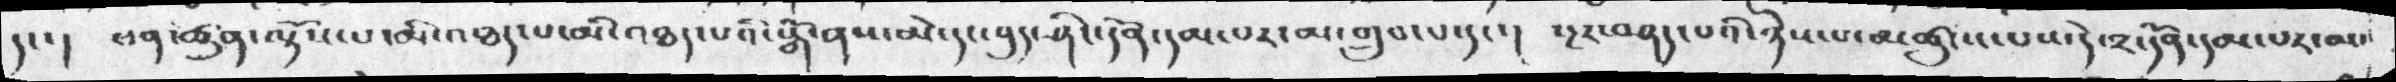དང་།  ཕན་ཚུན་ལྟོས་པ་མི་འཐད་པ་མི་འཐད་པའི་སྒོ་ནས་མེ་དང་བུད་ཤིང་དོན་དམ་པར་མ་གྲུབ་པ་དང་།  སྔར་བཤད་པའི་ཉེས་པ་མཚུངས་པས་དེ་༢་དོན་དམ་པར་མ་
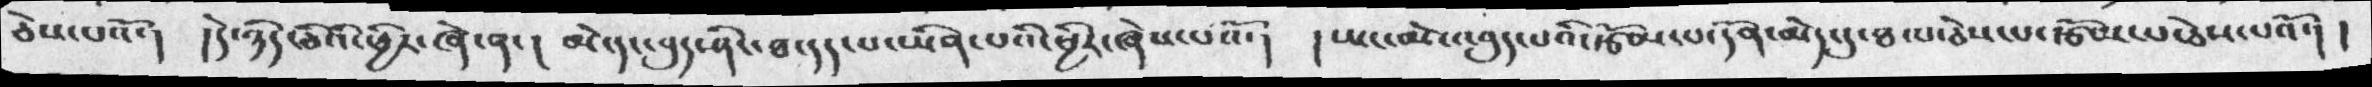ཅེས་པའོ་། །དེ་ཉིད་ཅིའི་ཕྱིར་ཞེ་ན་།  མེ་དང་བུད་ཤིང་ཐ་དད་པ་ཡིན་པའི་ཕྱིར་ཞེས་པའོ་། །ཡང་མེ་འབུད་པའི་རྩོམ་པ་དོན་མེད་དུ་ཐལ་པ་རྩོམ་པ་ཅེས་པའོ་། །
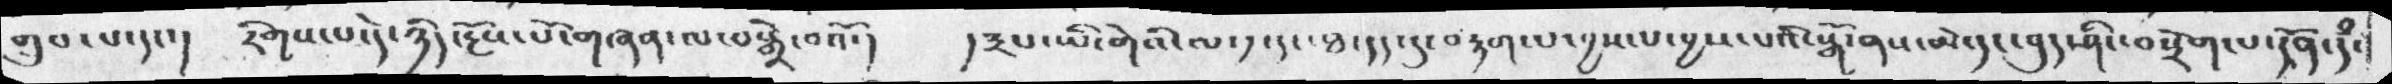གྲུབ་པ་དང་།  རིགས་པ་དེ་ཉིད་རྔོས་པོ་གཞན་ལ་བསྒྲེ་བའོ་།  །༣པ་ཡི་གེའི་ལ་༡་དང་ཐ་དད་དུ་བརྟག་པ་བྱས་བྱས་པའི་སྒོ་ནས་མེ་དང་བུད་ཤིང་བསྲེག་པ་དོན་དཾ་
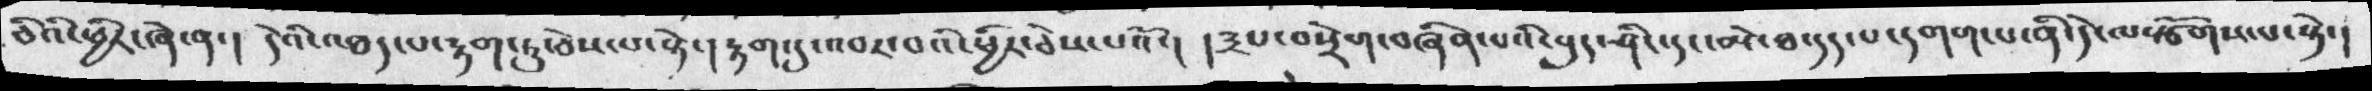ཅིའི་ཕྱིར་ཞེ་ན་།  དེའི་འཐད་པ་རྟག་ཏུ་ཅེས་པ་སྟེ་།  རྟག་དུ་འབར་བའི་ཕྱིར་ཅེས་པའོ་། །༣པ་བསྲེག་བཞིན་པའི་བུད་ཤིང་དང་མེ་ཐ་དད་པ་དགག་པ་ནི་དེ་ལསྩོགས་པ་སྟེ་།
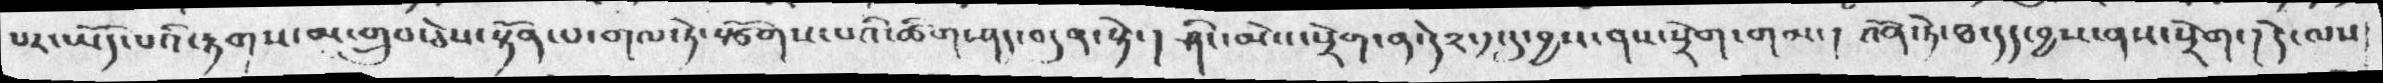པར་ཡོད་པའི་རྟགས་མ་གྲུབ་ཅེས་སྟོན་པ་གལ་ཏེ་སྩོགས་པའི་ཚིག་ཤད་བདུན་སྟེ་།. ཤིང་མེས་སྲེག་ན་དེ༢་༡་དུ་བྱས་ནས་སྲེག་གམ་། འོན་ཏེ་ཐ་དད་བྱས་ནས་སྲེག་། དེ་ལས་
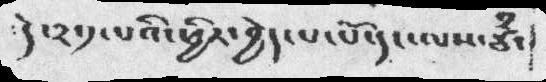དེ་༢་༡་པའི་ཕྱིར་བྱེད་པ་པོ་དང་ལས་ཙཾ་
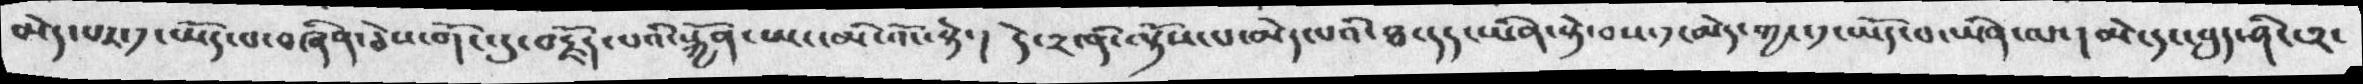མེད་པར་༡་ཡོད་པ་བཞིན་ཅེས་གོང་དུ་བརྗོད་པའི་སྐྱོན་ཡང་མི་འོང་སྟེ་།  དེ་༢་ནི་ལྟོས་པ་མེད་པའི་ཐ་དད་ཡིན་སྟེ་བས་༡་མེད་ཀྱང་༡་ཡོད་བ་ཡིན་ལ་། མེ་དང་བུད་ཤིང་༢་
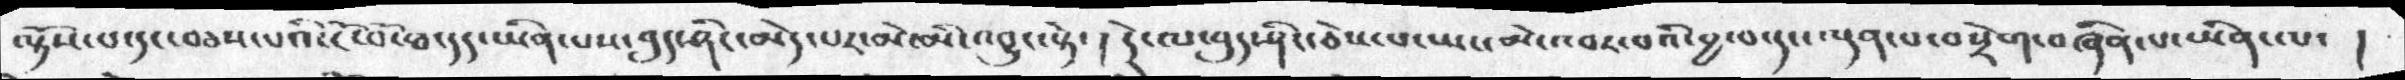ལྟོས་པ་དང་བཅས་པའི་ངོ་བོ་ཐ་དད་ཡིན་པས་བུད་ཤིང་མེད་པར་མེ་མི་འབྱུང་སྟེ་།  དེ་ལ་བུད་ཤིང་ཅེས་པ་ཡང་མེ་འབར་བའི་བྱ་བ་དང་ལྡན་པ་བསྲེག་བཞིན་པ་ཡིན་ལ་ །
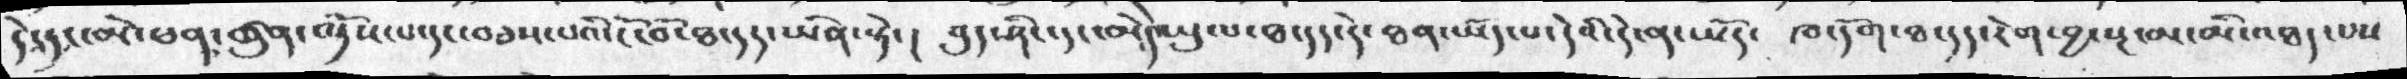དེ་དང་མེ་ཕན་ཚུན་ལྟོས་པ་དང་བཅས་པའི་ངོ་བོ་ཐ་དད་ཡིན་སྟེ་། བུད་ཤིང་དང་མེ་ཡུལ་ཐ་དད་དེ་ཐན་ཡོད་པ་དེའི་དེ་ན་ཡོད་ ཁ་དོག་ཐ་དད་རེག་བྱ་སྔ་མ་མི་འཐད་པས
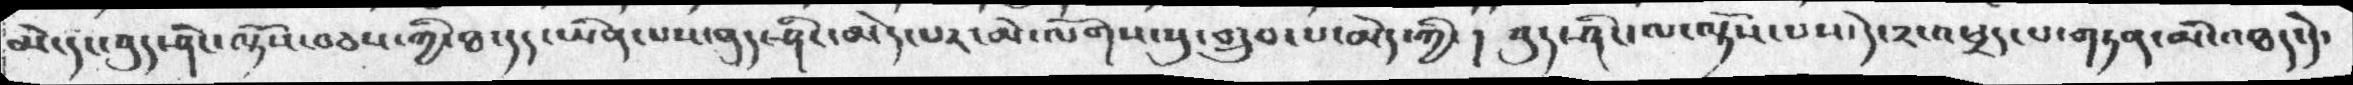མེ་དང་བུད་ཤིང་ལྟོས་བཅས་ཀྱི་ཐ་དད་ཡིན་པས་བུད་ཤིང་མེད་པར་མེ་ལོགས་སུ་གྲུབ་པ་མེད་ཀྱི་། བུད་ཤིང་ལ་ལྟོས་པས་དེ་༢་འཕྲད་པ་གཏན་མི་འཐད་དེ་
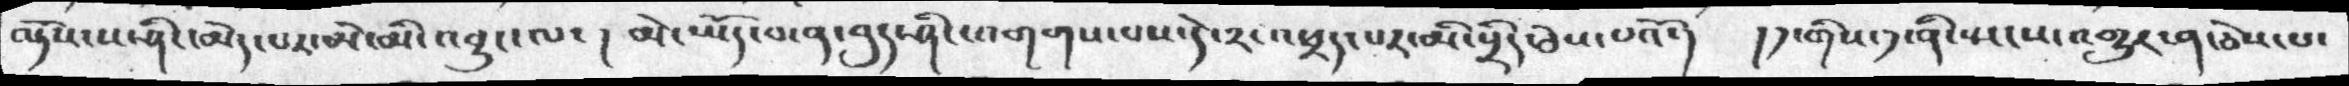ལྟོས་ས་ཤིང་མེད་པར་མེ་མི་འབྱུང་ལ་།  མེ་ཡོད་པ་ན་བུད་ཤིང་འགགས་པས་དེ་༢་འཕྲད་པར་མི་སྲིད་ཅེས་པའོ་།  །༡་གིས་༡་ནི་སྤངས་འགྱུར་ན་ཅེས་པ་
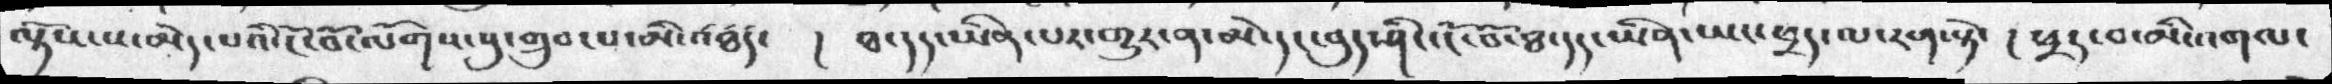ལྟོས་ས་མེད་པའི་ངོ་བོ་ལོགས་སུ་གྲུབ་པ་མི་འཐད་ ། ཐ་དད་ཡིན་པར་གྱུར་ན་མེ་དང་བུད་ཤིང་ངོ་བོ་ཐ་དད་ཡིན་ཡང་ཕྲད་ལ་རག་སྟེ་།  ཕྲད་བ་མི་འགལ་
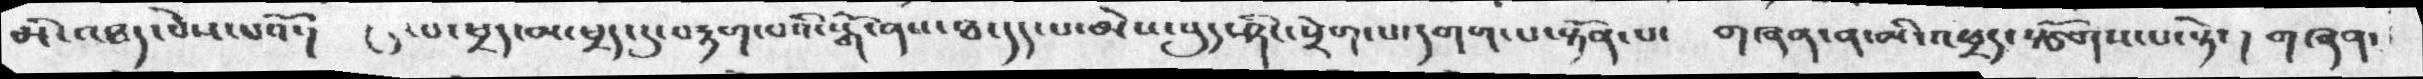མི་འཐད་ཅེས་པའོ་།  དུ་བ་ཕྲད་མ་ཕྲད་དུ་བརྟག་པའི་སྒོ་ནས་ཐ་དད་པ་མེས་བུད་ཤིང་སྲེག་པ་དགག་པ་སྟོན་པ་   གཞན་ན་མི་འཕྲད་སྩོགས་པ་སྟེ་། གཞན་
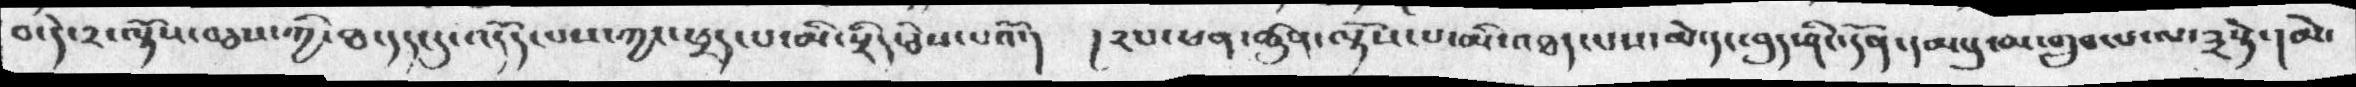བ་དེ་༢་ལྟོས་བཅས་ཀྱི་ཐ་དད་དུ་འདོད་པས་ཀྱང་ཕྲད་པ་མི་སྲིད་ཅེས་པའོ་།  །༢པ་ཕན་ཚུན་ལྟོས་པ་མི་འཐད་པས་མི་འཐད་པས་མེ་དང་བུད་ཤིང་དོན་དམ་དུ་མ་གྲུབ་པ་ལ་༣སྟེ་།མེ་
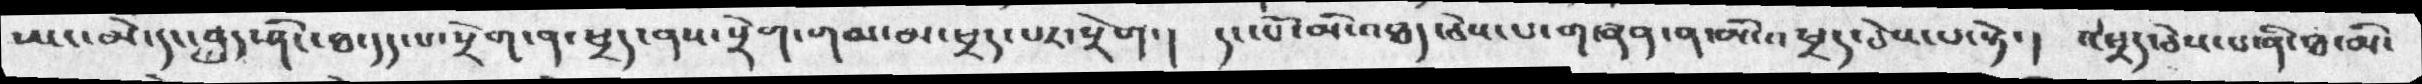ཡང་མེ་དང་བུད་ཤིང་ཐ་དད་པ་སྲེག་ན་ཕྲད་ནས་སྲེག་གམ་མ་ཕྲད་པར་སྲེག་།  དང་པོ་མི་འཐད་ཅེས་པ་གཞན་ན་མེ་འཕྲད་ཅེས་པ་སྟེ་། འཕྲད་ཅེས་པ་ནི་ཐ་མི་
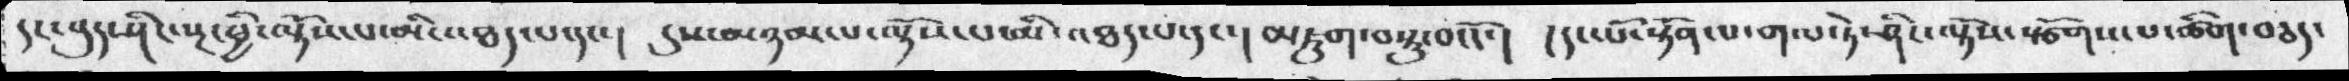དང་བུད་ཤིང་སྔ་ཕྱི་ལྟོས་པ་མི་འཐད་པ་དང་།  དུས་མཉམ་པ་ལྟོས་པ་མི་འཐད་པ་དང་། མཇུག་བསྡུ་བའོ་།  །དང་པོ་སྟོན་པ་གལ་ཏེ་ཤིང་ལྟོས་སྩོགས་པ་ཚིག་བཅད་
